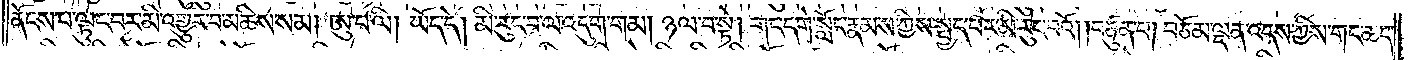ནོངས་པ་ལྟུང་བར་མི་འགྱུར་བ་མཆིས་སམ། ཨུ་པ་ལི། ཡོད་དེ། མི་རུང་བ་ལ་འདུག་གམ། ཉལ་བ་སྟེ། གང་དགེ་སློང་རྣམས་ཀྱིས་སྤྱད་པར་མི་རུང་བའོ། །བཙུན་པ། བཅོམ་ལྡན་འདས་ཀྱིས་གང་ཆད་
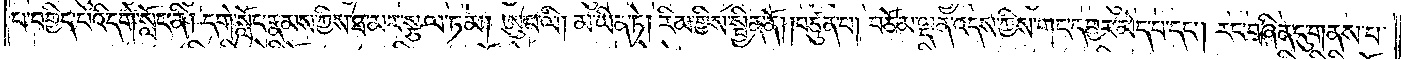པ་བགྱིད་པའི་དགེ་སློང་ནི། དགེ་སློང་རྣམས་ཀྱིས་ཐ་མར་སྩལ་ཏམ། ཨུ་པ་ལི། མ་ཡིན་ཏེ། རིམ་གྱིས་སྦྱིན་ནོ། །བཙུན་པ། བཅོམ་ལྡན་འདས་ཀྱིས་གང་དབྱར་མེད་པ་དང༌། རང་བཞིན་དུ་གནས་པ་
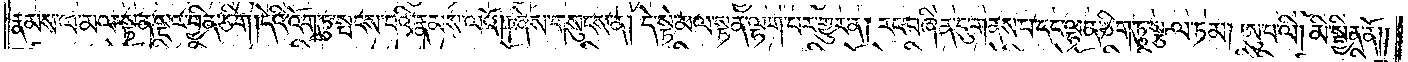རྣམས་ལ་མལ་སྟན་སྔར་བྱིན་ཅིག །དེའི་འོག་ཏུ་སྤངས་པའི་རྣམས་ལའོ། །ཞེས་གསུངས་ན། དེ་སྟེ་མལ་སྟན་ལྷག་པར་གྱུར་ན། རང་བཞིན་དུ་གནས་པ་དང་ལྷན་ཅིག་ཏུ་སྩལ་ཏམ། ཨུ་པ་ལི། མི་སྦྱིན་ནོ༎
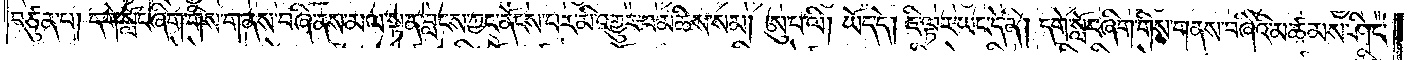བཙུན་པ། དགེ་སློང་ཞིག་གིས་གནས་བཞི་ནས་མལ་སྟན་བླངས་ཀྱང་ནོངས་པར་མི་འགྱུར་བ་མཆིས་སམ། ཨུ་པ་ལི། ཡོད་དེ། ཇི་ལྟར་ཡང་དེ་ནི། དགེ་སློང་ཞིག་གིས་གནས་བཞིའི་མཚམས་ཤིང་
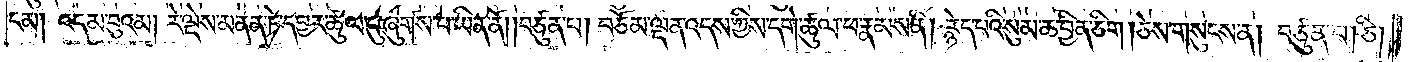ངམ། འདམ་བུའམ། རེ་ལྡེས་མནན་ཏེ་དབྱར་ཚུལ་དུ་ཞུགས་པ་ཡིན་ནོ། །བཙུན་པ། བཅོམ་ལྡན་འདས་ཀྱིས་དགེ་ཚུལ་ཕ་རྣམས་ནི། རྙེད་པའི་སུམ་ཆ་བྱིན་ཅིག །ཅེས་གསུངས་ན། བཙུན་པ། ཅི།
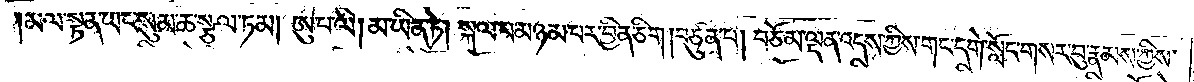མལ་སྟན་ཡང་སུམ་ཆ་སྩལ་ཏམ། ཨུ་པ་ལི། མ་ཡིན་ཏེ། སྐལ་པ་མཉམ་པར་བྱིན་ཅིག །བཙུན་པ། བཅོམ་ལྡན་འདས་ཀྱིས་གང་དགེ་སློང་གསར་བུ་རྣམས་ཀྱིས་
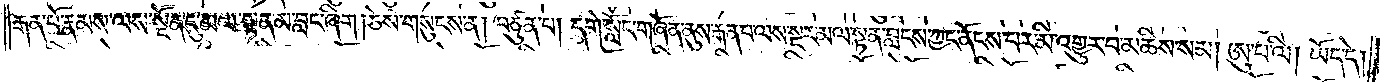རྒན་པོ་རྣམས་ལས་སྔོན་དུ་མལ་སྟན་མ་བླང་ཞིག །ཅེས་གསུངས་ན། བཙུན་པ། དགེ་སློང་གཞོན་ནུས་རྒན་པ་ལས་སྔར་མལ་སྟན་བླངས་ཀྱང་ནོངས་པར་མི་འགྱུར་བ་མཆིས་སམ། ཨུ་པ་ལི། ཡོད་དེ།
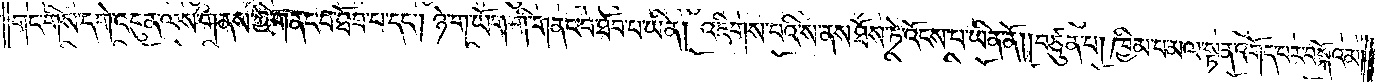གང་གིས་དགེ་འདུན་ལས་གནས་ཀྱི་གནང་བ་ཐོབ་པ་དང༌། ཉེ་གཡོག་གི་གནང་བ་ཐོབ་པ་ཡིན། འཇིགས་པའི་ས་ནས་ཐོས་ཏེ་འོངས་པ་ཡིན་ནོ། །བཙུན་པ། ཁྱིམ་པ་མལ་སྟན་འགོད་པར་བསྐོའམ་
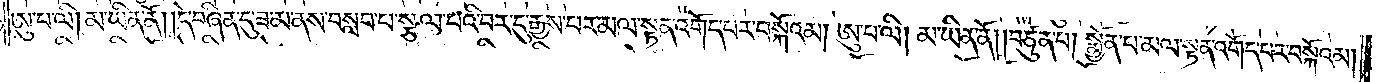ཨུ་པ་ལི། མ་ཡིན་ནོ། །དེ་བཞིན་དུ་ཟ་མ་ནས་བསླབ་པ་སྩལ་པའི་བར་དུ་རྒྱས་པར་མལ་སྟན་འགོད་པར་བསྐོའམ། ཨུ་པ་ལི། མ་ཡིན་ནོ། །བཙུན་པ། སྨྱོན་པ་མལ་སྟན་འགོད་པར་བསྐོའམ།
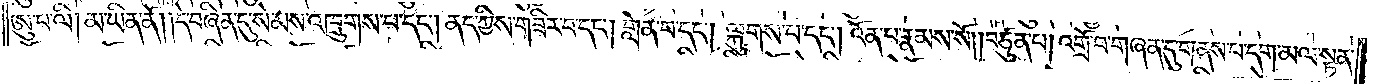ཨུ་པ་ལི། མ་ཡིན་ནོ། །དེ་བཞིན་དུ་སེམས་འཁྲུགས་པ་དང༌། ནད་ཀྱིས་གཟིར་བ་དང༌། གླེན་པ་དང༌། ལྐུགས་པ་དང༌། འོན་པ་རྣམས་སོ། །བཙུན་པ། འགྲོ་བ་གཞན་དུ་གནས་པ་དག་མལ་སྟན་
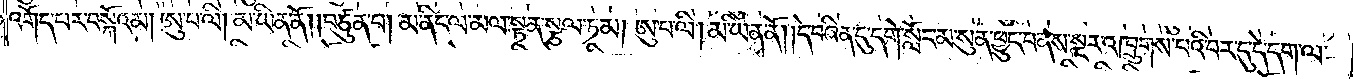འགོད་པར་བསྐོའམ། ཨུ་པ་ལི། མ་ཡིན་ནོ། །བཙུན་པ། མ་ནིང་ལ་མལ་སྟན་སྩལ་ཏམ། ཨུ་པ་ལི། མ་ཡིན་ནོ། །དེ་བཞིན་དུ་དགེ་སློང་མ་སུན་ཕྱུང་བ་ནས་སྔར་འཁྲུགས་པའི་བར་དུ་དེ་དག་ལ་
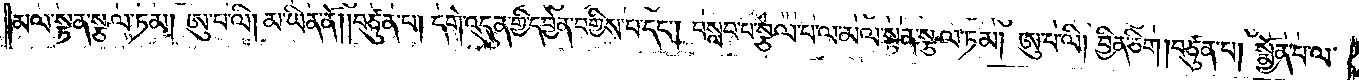མལ་སྟན་སྩལ་ཏམ། ཨུ་པ་ལི། མ་ཡིན་ནོ། །བཙུན་པ། དགེ་འདུན་གྱི་དབྱེན་བགྱིས་པ་དང༌། བསླབ་པ་སྩལ་པ་ལ་མལ་སྟན་སྩལ་ཏམ། ཨུ་པ་ལི། བྱིན་ཅིག །བཙུན་པ། སྨྱོན་པ་ལ་
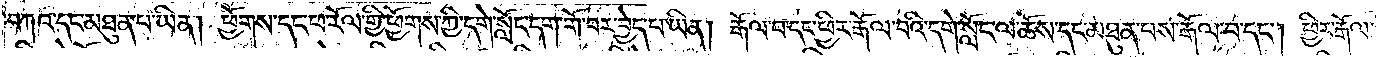བཀའ་དང་མཐུན་པ་ཡིན། ཕྱོགས་དང་ཕ་རོལ་གྱི་ཕྱོགས་ཀྱི་དགེ་སློང་དག་གོ་བར་བྱེད་པ་ཡིན། རྒོལ་བ་དང་ཕྱིར་རྒོལ་བའི་དགེ་སློང་ལ་ཆོས་དང་མཐུན་པས་རྒོལ་བ་དང༌། ཕྱིར་རྒོལ་
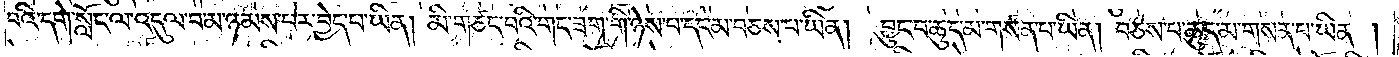བའི་དགེ་སློང་ལ་འདུལ་བ་མ་ཉམས་པར་བྱེད་པ་ཡིན། མི་གཙང་བའི་གང་ཟག་གི་ཉེས་པ་དང་མ་བཅས་པ་ཡིན། བྱུང་བ་ཆུད་མ་གསན་པ་ཡིན། བཅས་པ་ཆུད་མ་གསན་པ་ཡིན།
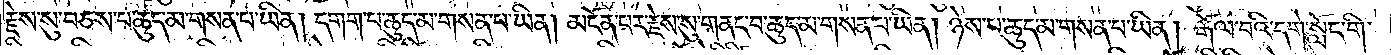རྗེས་སུ་བཅས་པ་ཆུད་མ་གསན་པ་ཡིན། དགག་པ་ཆུད་མ་གསན་པ་ཡིན། མངོན་པར་རྗེས་སུ་གནང་བ་ཆུད་མ་གསན་པ་ཡིན། ཉེས་པ་ཆུད་མ་གསན་པ་ཡིན། རྒོལ་བའི་དགེ་སློང་གི་
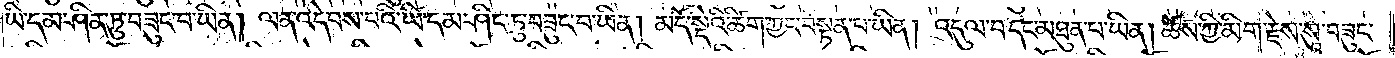ཡི་དམ་ཤིན་ཏུ་བཟུང་བ་ཡིན། ལན་འདེབས་པའི་ཡི་དམ་ཤིང་ཏུ་བཟུང་བ་ཡིན། མདོ་སྡེའི་ཚིག་ཀྱང་བསྟན་པ་ཡིན། འདུལ་བ་དང་མཐུན་པ་ཡིན། ཆོས་ཀྱི་མིག་རྗེས་སུ་བཟུང་
